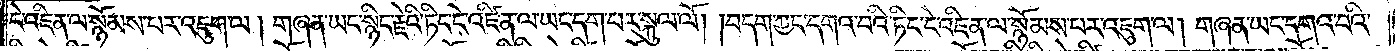ངེ་འཛིན་ལ་སྙོམས་པར་འཇུག་ལ། གཞན་ཡང་སྙིང་རྗེའི་ཏིང་ངེ་འཛིན་ལ་ཡང་དག་པར་སྐུལ་ལོ། །བདག་ཀྱང་དགའ་བའི་ཏིང་ངེ་འཛིན་ལ་སྙོམས་པར་འཇུག་ལ། གཞན་ཡང་དགའ་བའི་
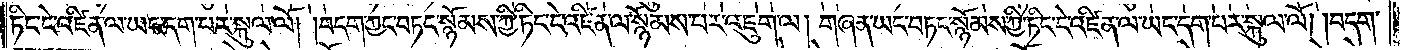ཏིང་ངེ་འཛིན་ལ་ཡང་དག་པར་སྐུལ་ལོ། །བདག་ཀྱང་བཏང་སྙོམས་ཀྱི་ཏིང་ངེ་འཛིན་ལ་སྙོམས་པར་འཇུག་ལ། གཞན་ཡང་བཏང་སྙོམས་ཀྱི་ཏིང་ངེ་འཛིན་ལ་ཡང་དག་པར་སྐུལ་ལོ། །བདག་
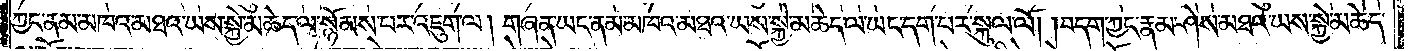ཀྱང་ནམ་མཁའ་མཐའ་ཡས་སྐྱེ་མཆེད་ལ་སྙོམས་པར་འཇུག་ལ། གཞན་ཡང་ནམ་མཁའ་མཐའ་ཡས་སྐྱེ་མཆེད་ལ་ཡང་དག་པར་སྐུལ་ལོ། །བདག་ཀྱང་རྣམ་ཤེས་མཐའ་ཡས་སྐྱེ་མཆེད་
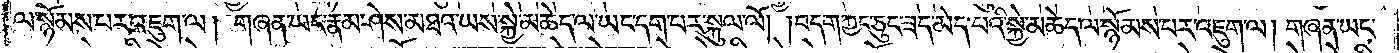ལ་སྙོམས་པར་འཇུག་ལ། གཞན་ཡང་རྣམ་ཤེས་མཐའ་ཡས་སྐྱེ་མཆེད་ལ་ཡང་དག་པར་སྐུལ་ལོ། །བདག་ཀྱང་ཅུང་ཟད་མེད་པའི་སྐྱེ་མཆེད་ལ་སྙོམས་པར་འཇུག་ལ། གཞན་ཡང་
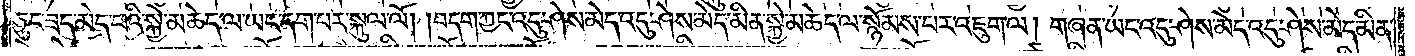ཅུང་ཟད་མེད་པའི་སྐྱེ་མཆེད་ལ་ཡང་དག་པར་སྐུལ་ལོ། །བདག་ཀྱང་འདུ་ཤེས་མེད་འདུ་ཤེས་མེད་མིན་སྐྱེ་མཆེད་ལ་སྙོམས་པར་འཇུག་ལ། གཞན་ཡང་འདུ་ཤེས་མེད་འདུ་ཤེས་མེད་མིན་
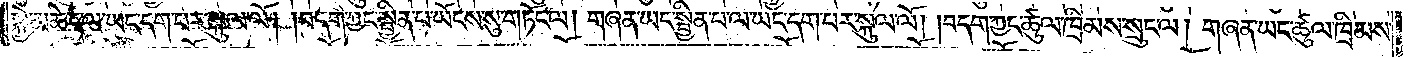སྐྱེ་མཆེད་ལ་ཡང་དག་པར་སྐུལ་ལོ། །བདག་ཀྱང་སྦྱིན་པ་ཡོངས་སུ་གཏོང་ལ། གཞན་ཡང་སྦྱིན་པ་ལ་ཡང་དག་པར་སྐུལ་ལོ། །བདག་ཀྱང་ཚུལ་ཁྲིམས་སྲུང་ལ། གཞན་ཡང་ཚུལ་ཁྲིམས་
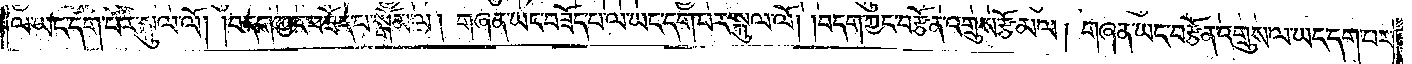ལ་ཡང་དག་པར་སྐུལ་ལོ། །བདག་ཀྱང་བཟོད་པ་སྒོམ་ལ། གཞན་ཡང་བཟོད་པ་ལ་ཡང་དག་པར་སྐུལ་ལོ། །བདག་ཀྱང་བརྩོན་འགྲུས་རྩོམ་ལ། གཞན་ཡང་བརྩོན་འགྲུས་ལ་ཡང་དག་པར་
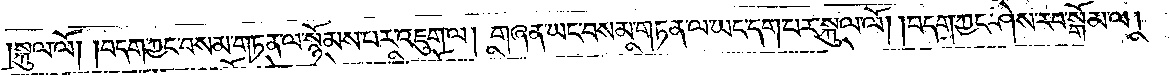སྐུལ་ལོ། །བདག་ཀྱང་བསམ་གཏན་ལ་སྙོམས་པར་འཇུག་ལ། གཞན་ཡང་བསམ་གཏན་ལ་ཡང་དག་པར་སྐུལ་ལོ། །བདག་ཀྱང་ཤེས་རབ་བསྒོམ་ལ།
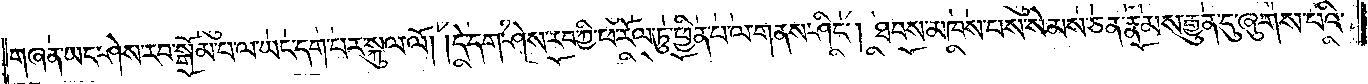གཞན་ཡང་ཤེས་རབ་སྒོམ་པ་ལ་ཡང་དག་པར་སྐུལ་ལོ། །དེ་དག་ཤེས་རབ་ཀྱི་ཕ་རོལ་ཏུ་ཕྱིན་པ་ལ་གནས་ཤིང༌། ཐབས་མཁས་པས་སེམས་ཅན་རྣམས་རྒྱུན་དུ་ཞུགས་པའི་
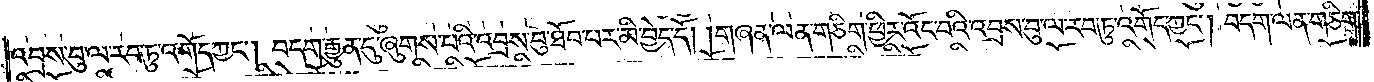འབྲས་བུ་ལ་རབ་ཏུ་འགོད་ཀྱང༌། བདག་རྒྱུན་དུ་ཞུགས་པའི་འབྲས་བུ་ཐོབ་པར་མི་བྱེད་དོ། །གཞན་ལན་གཅིག་ཕྱིར་འོང་བའི་འབྲས་བུ་ལ་རབ་ཏུ་འགོད་ཀྱང༌། བདག་ལན་གཅིག་
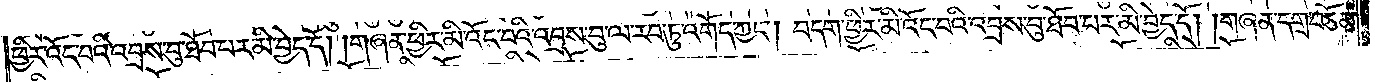ཕྱིར་འོང་བའི་འབྲས་བུ་ཐོབ་པར་མི་བྱེད་དོ། །གཞན་ཕྱིར་མི་འོང་བའི་འབྲས་བུ་ལ་རབ་ཏུ་འགོད་ཀྱང༌། བདག་ཕྱིར་མི་འོང་བའི་འབྲས་བུ་ཐོབ་པར་མི་བྱེད་དོ། །གཞན་དགྲ་བཅོམ་
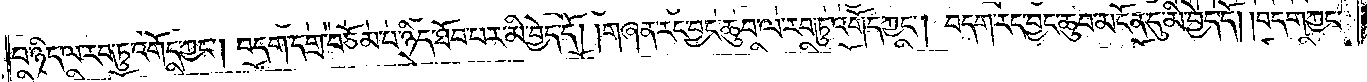པ་ཉིད་ལ་རབ་ཏུ་འགོད་ཀྱང༌། བདག་དགྲ་བཅོམ་པ་ཉིད་ཐོབ་པར་མི་བྱེད་དོ། །གཞན་རང་བྱང་ཆུབ་ལ་རབ་ཏུ་འགོད་ཀྱང༌། བདག་རང་བྱང་ཆུབ་མངོན་དུ་མི་བྱེད་དོ། །བདག་ཀྱང་
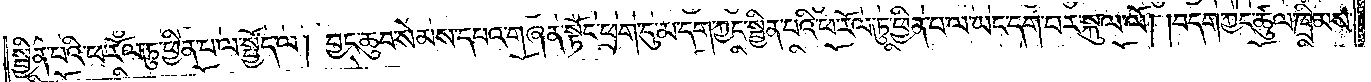སྦྱིན་པའི་ཕ་རོལ་ཏུ་ཕྱིན་པ་ལ་སྤྱོད་ལ། བྱང་ཆུབ་སེམས་དཔའ་གཞན་སྟོང་ཕྲག་དུ་མ་དག་ཀྱང་སྦྱིན་པའི་ཕ་རོལ་ཏུ་ཕྱིན་པ་ལ་ཡང་དག་པར་སྐུལ་ལོ། །བདག་ཀྱང་ཚུལ་ཁྲིམས་
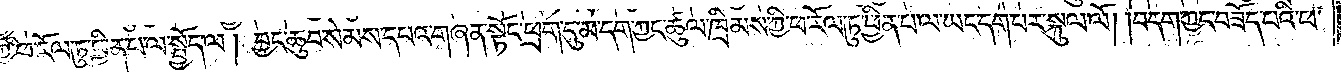ཀྱི་ཕ་རོལ་ཏུ་ཕྱིན་པ་ལ་སྤྱོད་ལ། བྱང་ཆུབ་སེམས་དཔའ་གཞན་སྟོང་ཕྲག་དུ་མ་དག་ཀྱང་ཚུལ་ཁྲིམས་ཀྱི་ཕ་རོལ་ཏུ་ཕྱིན་པ་ལ་ཡང་དག་པར་སྐུལ་ལོ། །བདག་ཀྱང་བཟོད་པའི་ཕ་
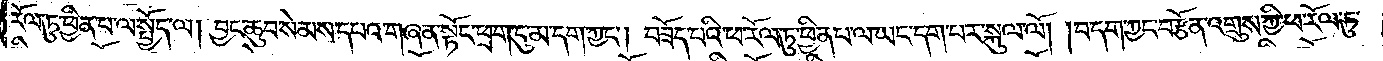རོལ་ཏུ་ཕྱིན་པ་ལ་སྤྱོད་ལ། བྱང་ཆུབ་སེམས་དཔའ་གཞན་སྟོང་ཕྲག་དུ་མ་དག་ཀྱང༌། བཟོད་པའི་ཕ་རོལ་ཏུ་ཕྱིན་པ་ལ་ཡང་དག་པར་སྐུལ་ལོ། །བདག་ཀྱང་བརྩོན་འགྲུས་ཀྱི་ཕ་རོལ་ཏུ་
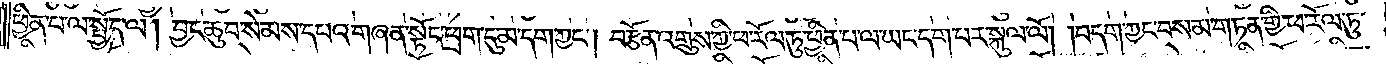ཕྱིན་པ་ལ་སྤྱོད་ལ། བྱང་ཆུབ་སེམས་དཔའ་གཞན་སྟོང་ཕྲག་དུ་མ་དག་ཀྱང༌། བརྩོན་འགྲུས་ཀྱི་ཕ་རོལ་ཏུ་ཕྱིན་པ་ལ་ཡང་དག་པར་སྐུལ་ལོ། །བདག་ཀྱང་བསམ་གཏན་གྱི་ཕ་རོལ་ཏུ་
